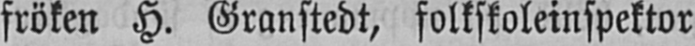fröken H. Granstedt, folkskoleinspektor
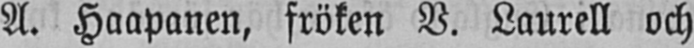A. Haapanen, fröken V. Laurell och
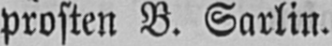prosten B. Sarlin.
